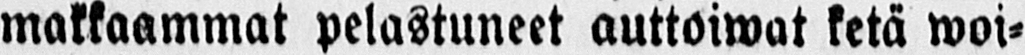makkaammat pelastuneet auttoiwat ketä woi-
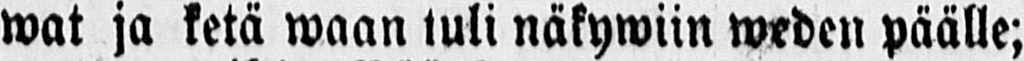wat ja ketä waan tuli näkywiin weden päälle;
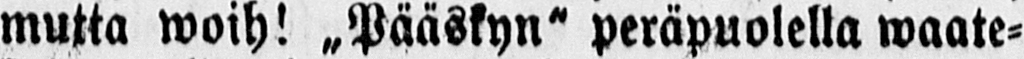mutta woih! „Pääskyn" peräpuolella waate-
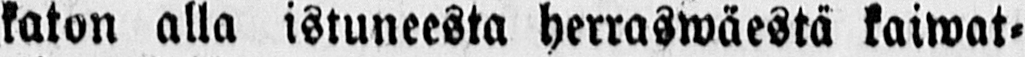katon alla istuneesta herraswäestä kaiwat-
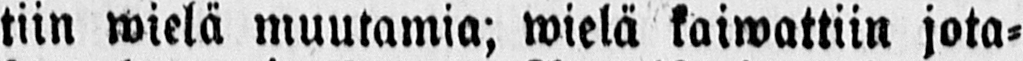tiin wielä muutamia; wielä kaiwattiin jota-
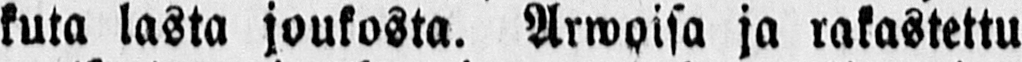kuta lasta joukosta. Arwoisa ja rakastettu
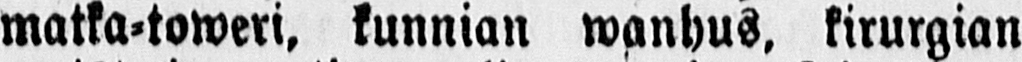matka-toweri, kunnian wanhus, kirurgian
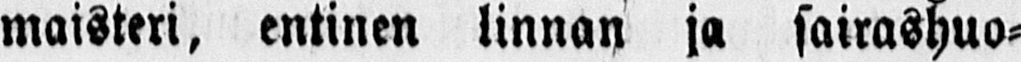maisteri, entinen linnan ja sairashuo-
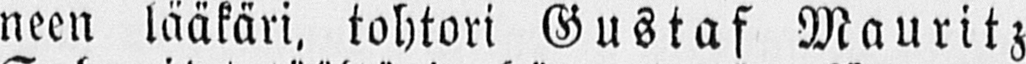neen lääkäri, tohtori Gustaf Mauritz
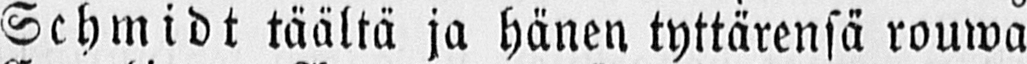Schmidt täältä ja hänen tyttärensä rouwa
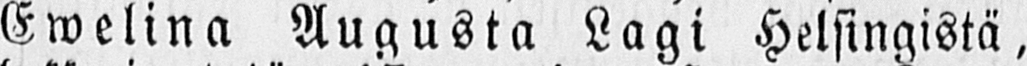Ewelina Augusta Lagi Helsingistä,
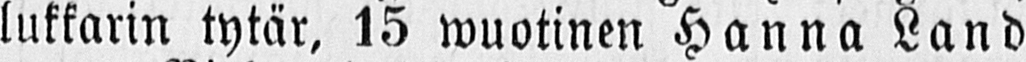lukkarin tytär, 15 wuotinen Hanna Land
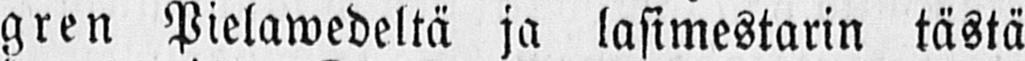gren Pielawedeltä ja lasimestarin tästä
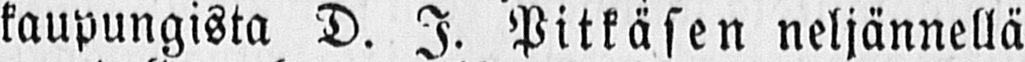kaupungista D. J. Pitkäsen neljännellä
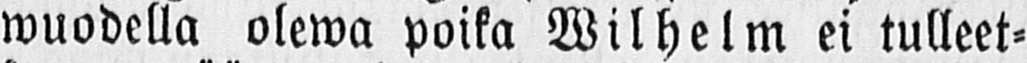wuodella olewa poika Wilhelm ei tulleet-
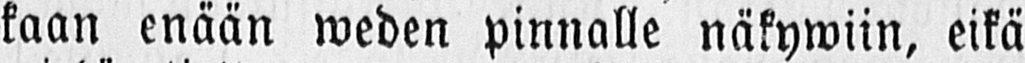kaan enään weden pinnalle näkywiin, eikä
